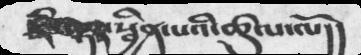ཇི་ལྟར་སྦྱིན་པའི་ཚུལ་ལོ།།
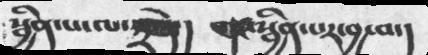སྦྱིན་པ་ལ་༣་ཏེ།  གང་སྦྱིན་པར་བྱ་བ་།
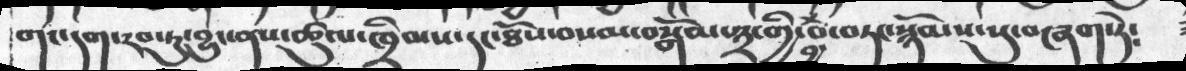གང་དག་རབ་ཏུ་བྱུང་ནས་ཚུལ་ཁྲིམས་དང་ཐོས་བསམ་བསྒོམ་༣་གྱི་བྱ་བ་བཏང་སྙོམས་སུ་བཞག་ཏེ༴
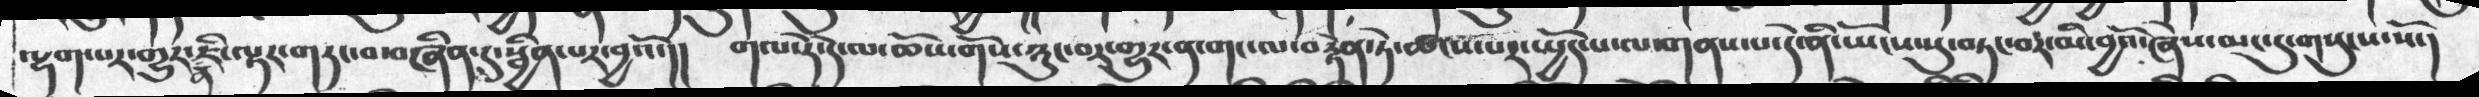ལྷག་པར་གྱུར་ན་ཇི་ལྟར་གཏང་བ་བཞིན་དུ་སྦྱིན་པར་བྱའོ་།།  གལ་ཏེ་དེ་ལ་ཆོས་གོས་ཉུང་བར་གྱུར་ན་གང་ལ་བརྟེན་ཏེ་ཚངས་པར་སྤྱོད་པ་ལ་གནས་པ་དེ་ནི་ཡོངས་སུ་བཏང་བར་མི་བྱའོ་ཞེས་མང་དུ་གསུངས་སོ་།
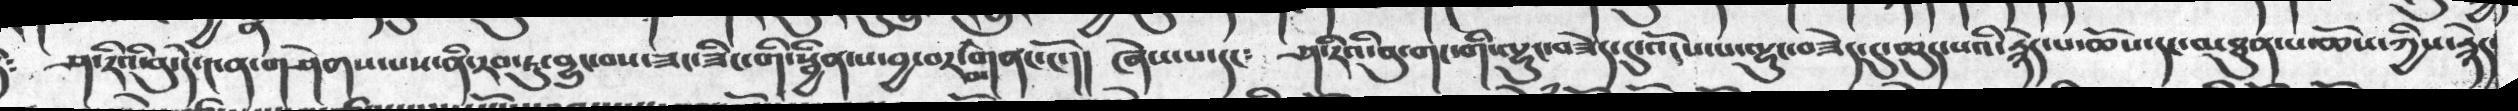ཤ་རིའི་བུ་དེ་༤ན་གཤེགས་པས་ནི་རབ་ཏུ་བྱུང་བས་ཟང་ཟིང་གི་སྦྱིན་པ་བྱ་བར་མི་གནང་ངོ་།།   ཞེས་པ་དང་   ཤ་རིའི་བུ་གང་གི་ལྷུང་བཟེད་དུ་འོངས་པ་ལྷུང་བཟེད་དུ་ཆུད་པའི་རྙེད་པ་ཆོས་དང་མཐུན་པ་ཆོས་ཀྱིས་རྙེད་
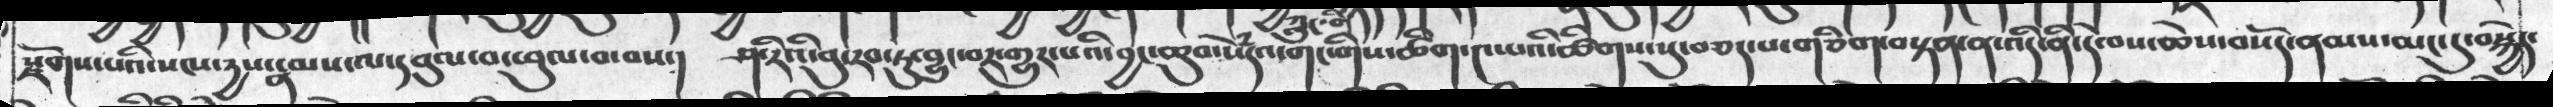སྫོགས་པའི་སངས་རྱས་རྣམས་ལ་དབུལ་བ་ཕུལ་བ་བས་།  ཤ་རིའི་བུ་རབ་ཏུ་བྱུང་བར་གྱུར་པའི་བྱང་ཆུབ་སེཾདའ་གང་གིས་ཚིག་༤་པའི་ཚིགས་སུ་བཅད་པ་གཅིག་བསྟན་ན་འདི་ནི་དེ་བས་ཆེས་བསོད་ནམས་མང་དུ་བསྐྱེད་
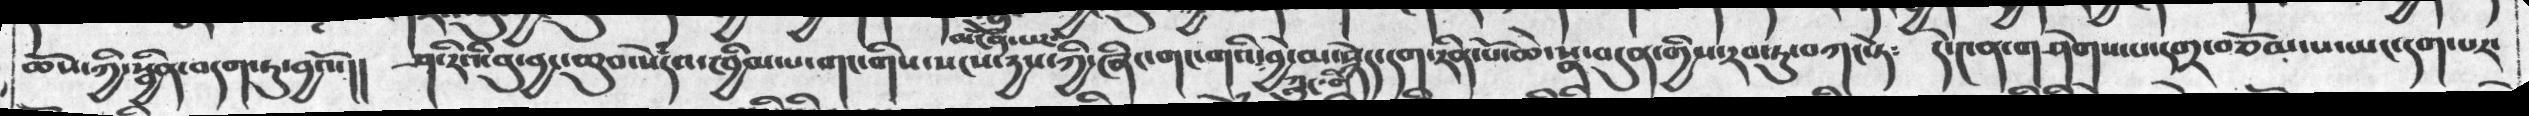ཆོས་ཀྱི་སྦྱིན་བདག་ཏུ་བྱའོ་།།   ཤ་རིའི་བུ་བྱང་ཆུབ་སེཾདའ་ཁྱིམ་པ་གང་གིས་མངོན་པར་སངས་རྱས་ཀྱི་ཞིང་གང་གའི་ཀླུང་གི་བྱེ་མ་སྙེད་དག་རིན་པོ་ཆེ་སྣ་བདུན་གྱིས་རབ་ཏུ་བཀང་སྟེ༴    དེ་༤ན་གཤེགས་པ་དགྲ་བཅོམ་པ་ཡང་དག་པར་
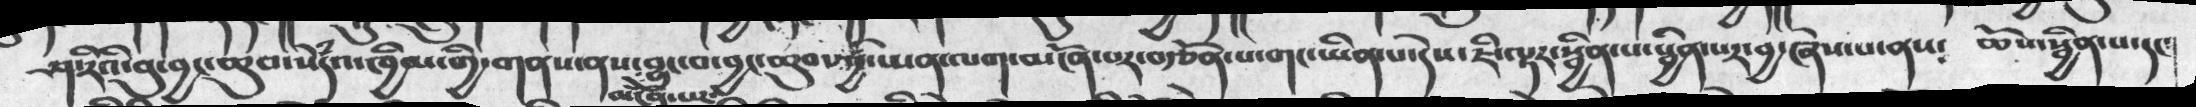ཤ་རིའི་བུ་བྱང་ཆུབ་སེཾདའ་ཁྱིམ་གྱི་གནས་ནས་མངོན་པར་བྱུང་བ་བྱང་ཆུབ་ཀྱི་ཡན་ལག་མངོན་པར་བརྩོན་པ་གང་ཡིན་པ་དེས་ཇི་ལྟར་སྦྱིན་པ་སྦྱིན་པར་བྱ་ཞེས་པ་ནས་    ཆོས་སྦྱིན་པ་དང་
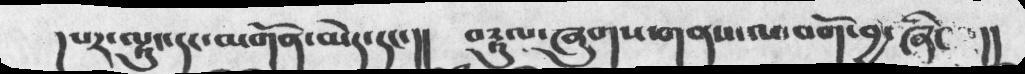།པར་ལྟུང་དང་མགོན་མེད་དང་།།  བརྟུལ་ཞུགས་གནས་ལ་བགོ་བྱ་ཞིང་།།
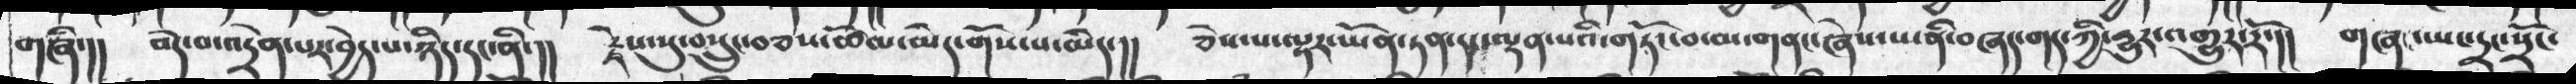གཞི་།།   བདེ་བ་འདྲེན་པར་བྱེད་པ་ཉིད་དང་ནི་།།  རྗེས་སུ་བསྲུང་བཅས་ཚོམ་མེད་གོས་པ་མེད་།།   ཅེས་པ་ལྟར་ཡོན་ཏན་དང་ལྡན་པའི་གཏོང་བ་མ་གནང་ཞེས་པ་ནི་བཞད་གད་ཀྱི་རྱུར་འགྱུར་རོ་།།    གཞན་ཡང་དྲང་སྲོང་
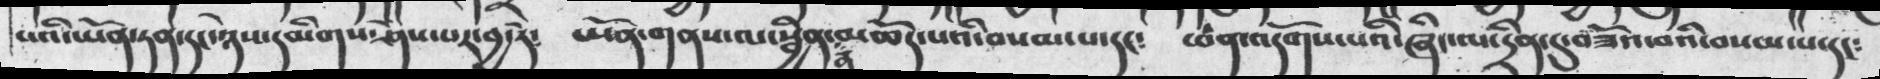པའི་ཡོན་ཏན་དང་ཉེས་དམིགས་ཤེས་པར་བྱ་ཏེ༴  ཡོན་གནས་ལ་སྦྱིན་ན་མཆོད་པའི་བསམ་པ་དང༴  ཕན་འདོགས་པའི་ཞིང་ལ་དྲིན་དུ་བཟོའ་བའི་བསམ་པ་དང༴
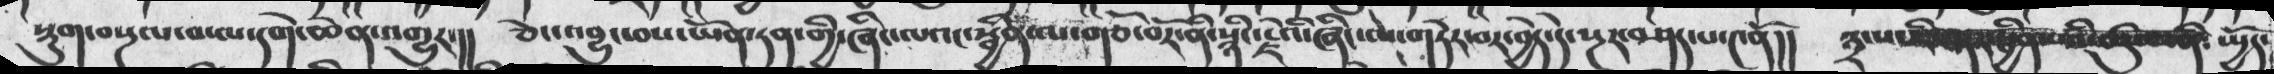སྡུག་བསྔལ་བ་ལ་དགེ་ཆེན་འགྱུར་།།  ཅེང་འབྱུང་བས་ཡོན་ཏན་གྱི་ཞིང་ལའང་སྦྱིན་ལ་གཙོ་བོར་ནི་སྙིང་རྗེའི་ཞིང་ལ་གཏེར་བར་བྱེད་དེ་སྔར་བཤད་པ་༤ནོ།།  ༢་པ་ཇི་ལྟར་སྦྱིན་པི་ཚུལ་ནི༴  སྤྱོད་
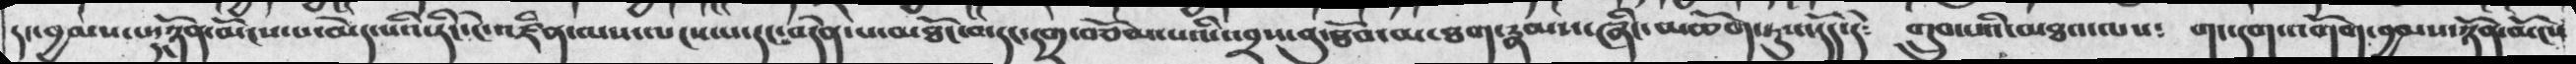དང་བྱམས་པ་དང་ཉོན་མོངས་པ་མེད་པའི་ཏིང་ངེ་འཛིན་ལས་ལངས་པ་དང་བདེན་པ་མཐོང་བ་དང་དགྲ་བཅོམ་པའི་འབྲས་བུ་ཐོབ་མ་ཐག་རྣམས་ཞིང་མཆོག་ཏུ་འདོད་དེ༴  གྲུབ་པའི་མཐའ་ལས༴   གང་དག་འགོག་བྱམས་ཉོན་མོངས
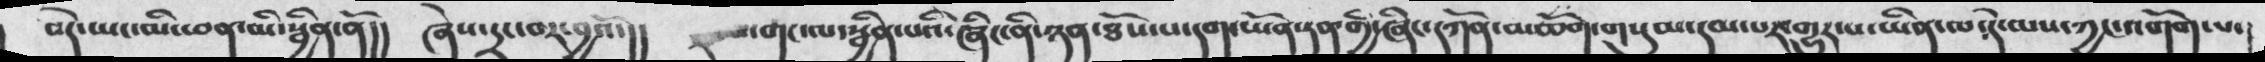བདེ་ཡང་མི་ཕན་མི་སྦྱིན་ནོ།།  ཞེས་དྲ་བར་བྱའོ་།།  གང་ལ་སྦྱིན་པའི་ཞིང་ནི་ཉན་ཐོས་པ་དག་ཡོན་ཏན་གྱི་ཞིང་དཀོན་མཆོག་གསུམ་དདམ་པར་གྱུར་པ་ཡིན་ལ༴དེ་ལས་ཀྱང་འགོག་པ་།
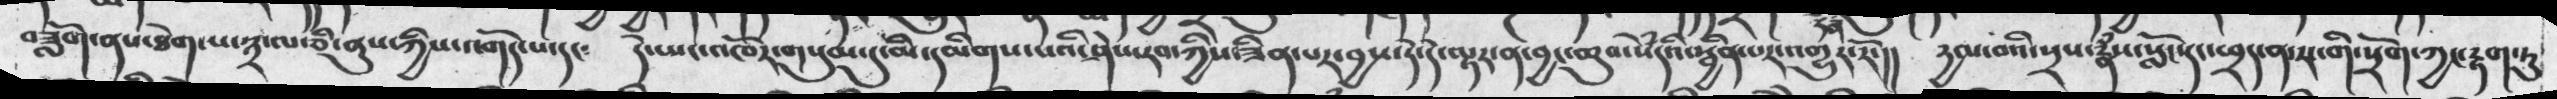བཟློག་ནས་ཐེག་པ་༣་ལ་ཅི་ནུས་ཀྱིས་འགོད་པ་དང༴  དེ་ཡང་འཁོར་གསུམ་དུ་མི་དམིགས་པའི་ཤེས་རབ་ཀྱིས་ཟིན་པར་བྱས་ཏེ་དེ་ལྟར་ན་བྱང་ཆུབ་སེཾདའི་སྦྱིན་པར་འགྱུར་རོ་།།  རྱལ་བའི་སྲས་རྣཾས་སློང་དང་ཕྲད་ན་རང་གི་སྲོག་ཀྱང་རྟག་ཏུ
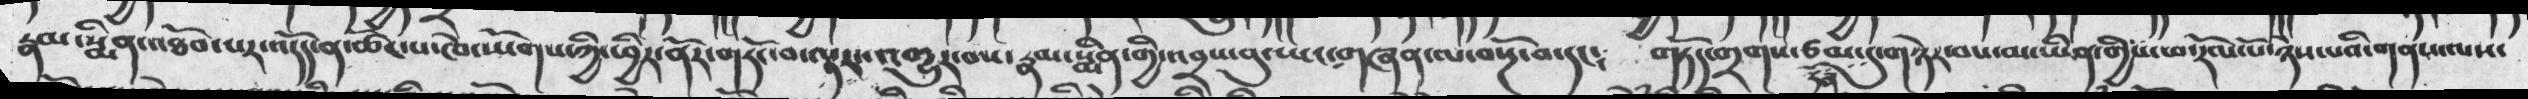རྣམ་སྨིན་འཐོབ་པར་འདོད་ན་ཚོཌ་པ་ཁེ་ཡོགས་ཀྱི་ཕྱིར་ནོར་གཏོང་བ་ལྟར་འགྱུར་བས་རྣམ་སྨིན་གྱི་འབྲས་བུ་ཡང་གཞན་ལ་བསྔོ་བ་དང༴  གཏོད་གྲགས་ཙམ་དོན་དུ་གཉེར་བས་མ་ཡིན་གྱིས་ཕ་རོལ་པོ་ཉེས་པའི་གནས་ལས་
